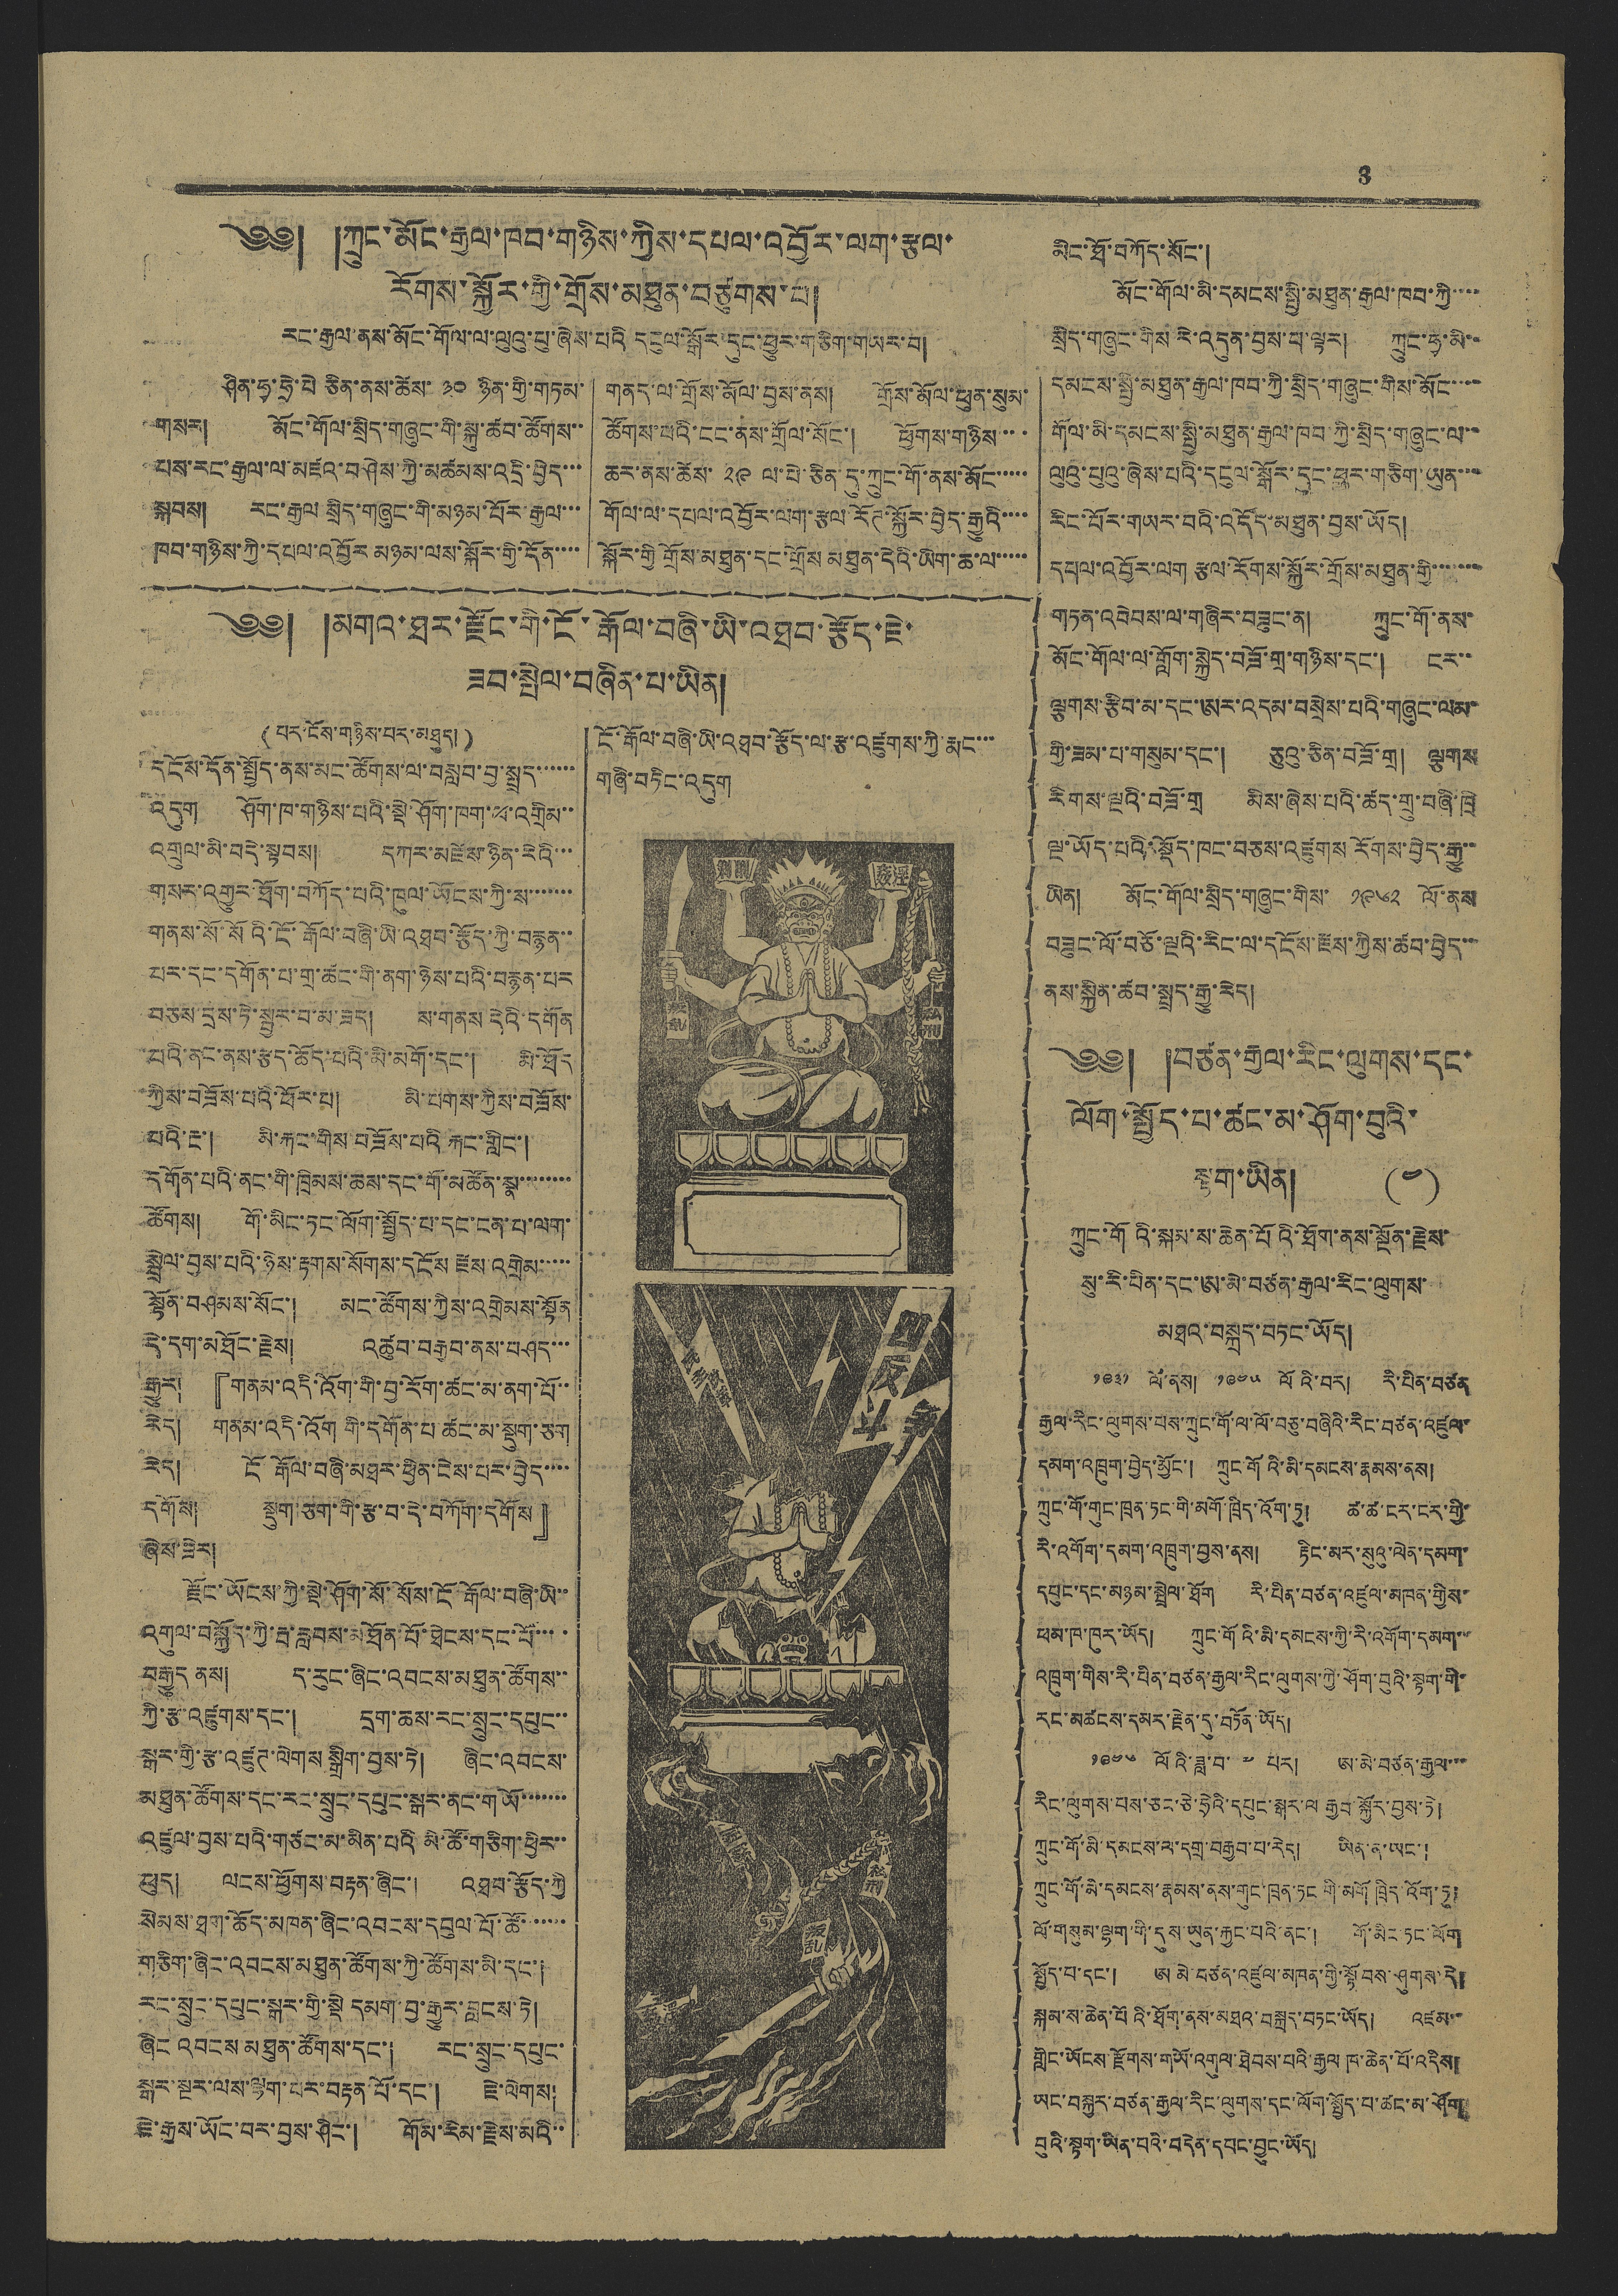3
༄༅། །ཀྲུང་མོང་རྒྱལ་ཁབ་གཉིས་ཀྱིས་དཔལ་འབྱོར་ལག་རྩལ་
རོགས་སྐྱོར་གྱི་གྲོས་མཐུན་བཙུགས་པ།
རང་རྒྱལ་ནས་མོང་གོལ་ལ་ལུའུ་པུ་ཞེས་པའི་དངུལ་སྒོར་དུང་ཕྱུར་གཅིག་གཡར་བ།
ཤིན་ཧྭ་ཧྲེ་པེ ཅིན་ནས་ཚེས་ ༣༠ ཉིན་གྱི་གཏམ་
གསར། མོང་གོལ་སྲིད་གཞུང་གི་སྐུ་ཚབ་ཚོགས་་
པས་རང་རྒྱལ་ལ་མཛའ་བཤེས་ཀྱི་མཚམས་འདྲི་བྱེད་་་
སྐབས། རང་རྒྱལ་སྲིད་གཞུང་གི་མཉམ་པོར་རྒྱལ་་་
ཁབ་གཉིས་ཀྱི་དཔལ་འབྱོར མཉམ་ལས་སྐོར་གྱི་དོན་་་་
གནད་ལ་གྲོས་རྒོལ་བས་ནས། ཐོས་མོལ་ཕྱན་སུམ་
ཚོགས་པའི་ངང་ནས་གྲོལ་སོང་། ཕྱོགས་གཉིས་་་
ཆར་ནས་ཚེས་ ༢༩ ལ་པེ་ཅིན་དུ་ཀྲུང་གོ་ནས་མོང་་་་་
གོལ་ལ་དཔལ་འབྱོར་ལག་རྩལ་རོཊ་སྐོར་བྱེད་རྒྱུའི་་་་
སྐོར་གྱི གྲོས་མཐུན་དང་གྲོས མཐུན་དེའི་ཡིག་ཆ་ལ་་་་་
མིང་ཐོ་བཀོད་སོང་།
མོང་གོལ་མི་དམངས་སྤྱི་མཐུན་རྒྱལ་ཁབ་ཀྱི་་་་
སྲིད་གཞུང་གིས་རེ་འདུན་བྱས་པ་ལྟར། ཀྲུང་ཧྭ་མི་་
དམངས་སྤྱི་མཐུན་རྒྱལ་ཁབ་ཀྱི་སྲིད་གཞུང་གིས་མོང་་་་
རྒོལ་མི་དམངས་སྤྱི་མཐུན་རྒྱལ་ཁབ་ཀྱི་སྲིད་གཞུང་ལ་་
ལུའུ་པུའུ་ཞེས་པའི་དངུལ་སྒོར་དང་ཕར་གཅིག་ཡུན་་་
རིང་པོར་གཡར་བའི་འདོད་མཐུན་བྱས་ཡོད།
དཔལ་འབྱོར་ལག རྩལ་རོགས་སྐྱོར་གྲོས་མཐུན་གྱི་་་་་་
གཏན་འབེབས་ལ་གཞིར་བཟུང་ན། ཀྲུང་གོ་ནས་
མོང་གོལ་ལ་གློག་སྐྱེད་བཟོ་གྲ་གཉིས་དང་། ངར་
ལྕགས་རྩིབ་མ་དང་ཨར་འདམ་བསྲེས་པའི་གཞུང་ལམ་
གྱི་ཟམ་པ་གསུམ་དང་། ཅུའུ་ཅིན་བཟོ་གྲ། ལྕགས
རིགས་ལྔའི་བཟོ་གྲ མིས་ཞེས་པའི་ཚད་གྲུ་བཞི་ཁྲི
ལྔ་ཡོད་པའི་སྡོད་ཁང་བཅས་འཛུགས་རོགས་བྱེད་རྒྱུ་
ཡིན། མོང་གོལ་སྲིད་གཞུང་གིས་ ༡༩༦༢ ལོ་ནས
བཟུང་ལོ་བཅོ་ལྔའི་རིང་ལ་དངོས་རྫས་ཀྱིས་ཚབ་བྱེད་
ནས་སྐྱིན་ཚབ་སྤྲད་རྒྱུ་རེད།
༄༅། །བཙན་རྒྱལ་རིང་ལུགས་དང་
ལོག་སྤྱོད་པ་ཚང་མ་ཤོག་བུའི་
སྟག་ཡིན། (༤)
ཀྲུང་གོའི་སྐམ་ས་ཆེན་པོའི་ཐོག་ནས་སྔོན་རྗེས་
སུ་རི་པིན་དང་ཨ་མེ་བཙན་རྒྱལ་རིང་ལུགས་
མཐའ་བསྐྲད་བཏང་ཡོད།
༡༩༣༡ ལོ་ནས། ༡༩༤༥ ལོའི་བར། རི་པིན་བཙན
རྒྱལ་རིང་ལུགས་པས་ཀྲུང་གོ་ལ་ལོ་བཅུ་བཞིའི་རིང་བཙན་འཛུལ་
དམག་འཁྲུག་བྱེད་མྱོང་། ཀྲུང་གོའི་མི་དམངས་རྣམས་ནས།
ཀྲུང་གོ་གུང་ཁྲན་ཏང་གི་མགོ་ཁྲིད་འོག་ཏུ། ཚ་ཚ་ངར་ངར་གྱི་
རི་འགོག་དམག་འཁྲུག་བྱས་ནས། རྟིང་མར་སུའུ་ལེན་དམག་
དཔུང་དང་མཉམ་སྦྲེལ་ཐོག རི་པིན་བཙན་འཛུལ་མཁན་གྱིས་
ཕམ་ཁ་ཁུར་ཡོད། ཀྲུང་གོའི་མི་དམངས་ཀྱི་རི་འགོག་དམག་་
འཁྲུག་གིས་རི་པིན་བཙན་རྒྱལ་རིང་ལུགས་ཀྱི་ཤོག་བུའི་སྟག་གི་
རང་མཚོངས་དཔར་ཆེན་དུ་བཏོན་ཡོད།
༡༩༦༦ ལོའི་ཟླ་བ་ ༧ པར། ཨ་མེ་བཙན་རྒྱལ་་་
རིང་ལུགས་པས་ཅང་ཅེ་ཧྲེའི་དཔུང་སྒར་བརྒྱབ སྐྱོར་བྱས་ཏེ།
ཀྲུང་གོ་མི་དམངས་འ་དྲབ་བརྒྱབ་པ་རེད། ཡིན་ན་ཡང་།
ཀྲུང་གོ་མི་དམངས་རྣམས་ནས་གུང་ཁྲན་ཏང་གི་མགོ་ཁྲིད་འོག་ཏུ།
ལོ་གསུམ་ལྷག་གི་དུས་ཡུན་རྐྱང་པའི་ནང་། གོ་མིང ཏང་ལོག
སྤྱོད་པ་དང་། ཨ་མེ་བཙན་འཛུལ་མཁན་གྱི་སྟོབས་ཤུགས་དེ།
སྐམ་ས་ཆེན་པོའི་ཐོག་ནས་མཐའ་བསྐྲད་བཏང་ཡོད། འཛམ་་
གླིང་ཡོངས་རྫོགས་གཡོ་འགུལ་ཐེབས་པའི་རྒྱལ ཁ་ཆེན་པོ་འདིས།
ཡང་བསྐྱར་བཙན་རྒྱལ་རིང་ལུགས་དང་ལོག་སྤྱོད་པ་ཚང་མ་ཤོག་
བུའི་སྟག་ཡིན་པའི་བདེན་དཔང་བྱུང་ཡོད།
༄༅། །མགའ་ཐར་རྫོང་གི་ངོ་རྒོལ་བཞི་ཡི་འཐབ་རྩོད་ཇེ་
ཟབ་སྤེལ་བཞིན་པ་ཡིན།
(པར་ངོས་གཉིས་པར་མཐུད།)
དངོས་དོན་སྤྱོད་ནས་མང་ཚོགས་ལ་བསླབ་བྱ་སྤྲད་་་་་
འདུག ཤོག་ཁ་གཉིས་པའི་སྡེ་ཤོག་ཁག་ཕ་འགྲིམ་
འགྲུལ་མི་བདེ་སྟབས། དཀར་མཛེས་ཉིན་རེའི་་་
གསར་འགྱུར་ཐོག་བཀོད་པའི་ཁུལ་ཡོངས་ཀྱི་ས་་་་་་་
གནས་སོ་སོའི་ངོ་རྒོལ་བཞི་ཡི་འཐབ་རྩོད་ཀྱི་བརྙན་་
པར་དང་དགོན་པ་གྲ་ཚང་གི་ནག་ཉེས་པའི་བརྙན་པར
བཅས་དྲས་ཏེ་སྦྱར་བ་མ་ཟད། ས་གནས་དེའི་དགོན
པའི་ནང་ནས་རྩད་ཆོད་པའི་མི་མགོ་དང་། མི་ཐོད
ཀྱིས་བཟོས་པའི་ཕོར་པ། མི་པགས་ཀྱིས་བཟོས་
པའི་རྔ་། མི་རྐང་གིས་བཟོས་པའི རྐང་གླིང་།
དགོན་པའི་ནང་གི་ཁྲིམས་ཆས་དང་གོ་མཚོན་སྣ་་་་་་་
ཚོགས། གོ་མིང་ཏང་ལོག་སྤྱོད་པ་དང་ངན་པ་ལག་
སྦྲེལ་བྱས་པའི་ཉེས་རྟགས་སོགས་དངོས རྫས་འགྲེམ་་་་
སྟོན་བཤམས་སོང་། མང་ཚོགས་ཀྱིས་འགྲེམས་སྟོན
དེ་དག་མཐོང་རྗེས། འཚབ་བརྒྱབ་ནས་བཤད་་་
རྒྱུར། 『གནམ་འདི་འོག་གི་བྱ་རོག་ཚང་མ་ནག་པོ་
རེད། གནམ་འདི་འོག གི་དགོན་པ་ཚང་མ་སྡུག་ཅག
རེད། ངོ རྒོལ་བཞི་མཐར་ཕྱིན་ངེས་པར་བྱེད་་་་
དགོས། སྡུག་ཅག་གི་རྩ་བ་དེ་བཀོག་དགོས』
ཞེས་ཟེར།
རྫོང་ཡོངས་ཀྱི་སྡེ་ཤོག་སོ་སོས་ངོ་རྒོལ་བཞི་ཡི་་
འགུལ་བསྐྱོད་ཀྱི་རྦ་རླབས་མཐོན་པོ་ཐེངས་དང་པོ་་་་
བརྒྱུད ནས། ད་རུང་ཞིང་འབངས་མཐུན་ཚོགས་་
ཀྱི་རྩ་འཛུགས་དང་། དྲག་ཆས་རང་སྲུང་དཔུང་་
སྒར་གྱི་རྩ་འཛུཊ་ལེགས་སྒྲིག་བྱས་ཏེ། ཞིང་འབངས་
མཐུན་ཚོགས་དང་རང་སྲུང་དཔུང་སྒར་ནང་གཡོ་་་་་་་
འཛུལ་བྱས་པའི་གཙང་མ་མིན་པའི་མི་ཚོ་གཅིག་ཕྱིར་་
ཕུད། ལངས་ཕྱོགས་བརྟན་ཞིང་། འཐབ་རྩོད་ཀྱི
སེམས་ཐག་ཆོད་མཁན་ཞིང་འབངས་དབུལ་པོ་ཚོ་་་་་་
གཅིག་ཞིང་འབངས་མཐུན་ཚོགས་ཀྱི་ཚོགས་མི་དང་།
རང་སྲུང་དཔུང་སྒར་གྱི་སྡེ་དམག་བྱ་རྒྱུར་བླངས་ཏེ།
ཞིང འབངས་མཐུན་ཚོགས་དང་། རང་སྲུང་དཔུང་
སྒར་སྔར་ལས་ལྷག་པར་བརྟན་པོ་དང་། ཇེ་ལེགས།
ཇེ་རྒྱས་ཡོང་བར་བྱས་ཤིང་། གོམ་རིམ་རྗེས་མའི་་
ངོ་རྒོལ་བཞི་ཡི་འཐབ་རྩོད་ལ་རྩ་འཛུགས་ཀྱི་རྨང་་་
གཞི་བཏང་འདུག
